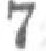7
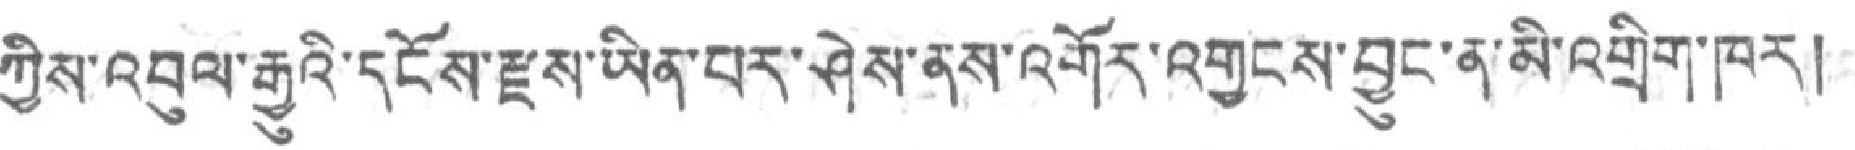ཀྱིས་འབུལ་རྒྱུའི་དངོས་རྫས་ཡིན་པར་ཤེས་ནས་འགོར་འགྱངས་བྱུང་ན་མི་འགྲིག་ཁར།
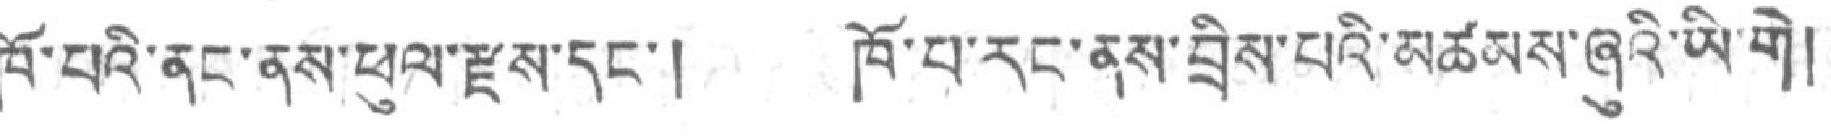ཁོ་པའི་ནང་ནས་ཕུལ་རྫས་དང་། ཁོ་པ་རང་ནས་བྲིས་པའི་མཚམས་ཞུའི་ཡི་གེ།
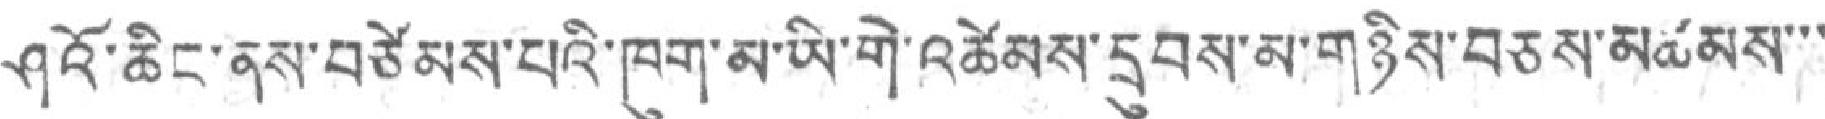ཤའོ་ཆིང་ནས་བཙེམས་པའི་ཁག་མ་ཡི་གེ་འཚེམས་དྲབས་མ་གཉིས་བཅས་མཚམས་་་
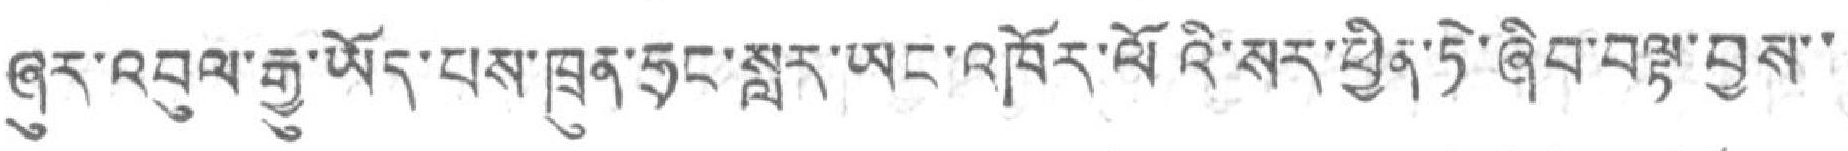ཞར་འབུལ་རྒྱུ་ཡོད་པས་ཁྲུན་ཧྲང་སླར་ཡང་འཁོར་ལོའི་སར་ཕྱིན་ཏེ་ཞིབ་བལྟ་བྱས་་
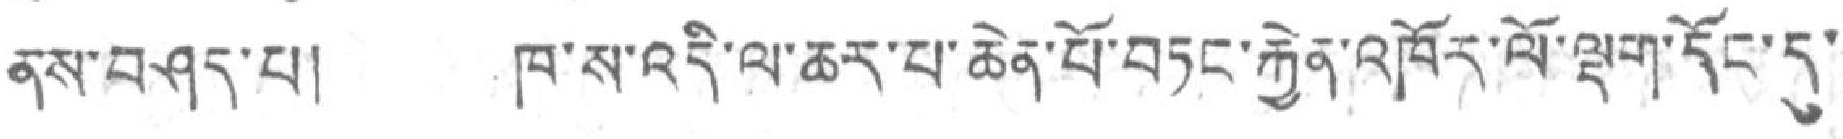ནས་བཤད་པ། ཁ་ས་འདི་ལ་ཆར་པ་ཆེན་པོ་བཏང་རྐྱེན་འཁོར་ལོ་ལྡག་དོང་དུ་
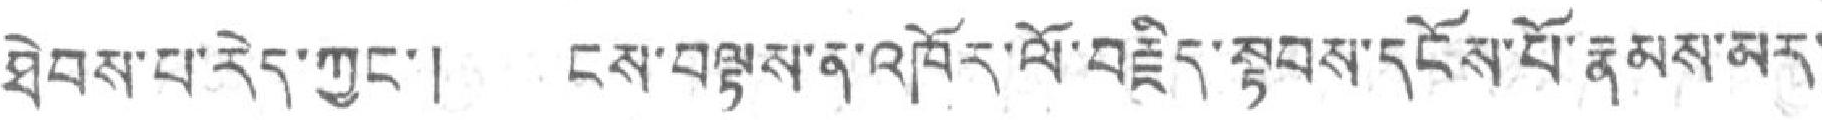ཐེབས་པ་རེད་ཀྱང་། ངས་བལྟས་ན་འཁོར་ལོ་བརྗིད་སྟབས་དངོས་པོ་རྣམས་མར་
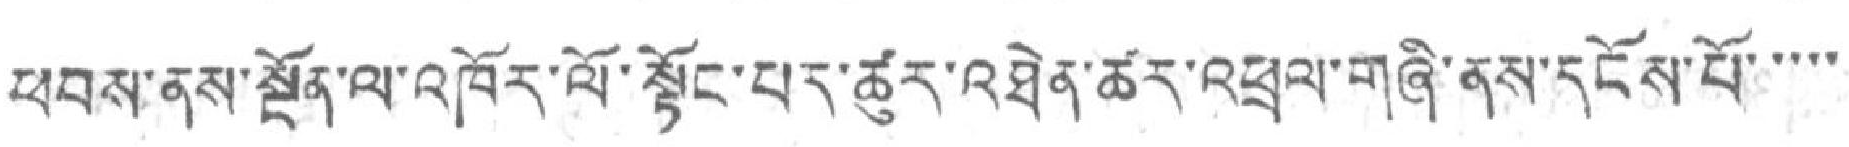ཕབས་ནས་སྔོན་ལ་འཁོར་ལོ་སྟོང་པར་ཚུར་འཐེན་ཚར་འཕྲལ་གཞི་ནས་དངོས་པོ་་་་་
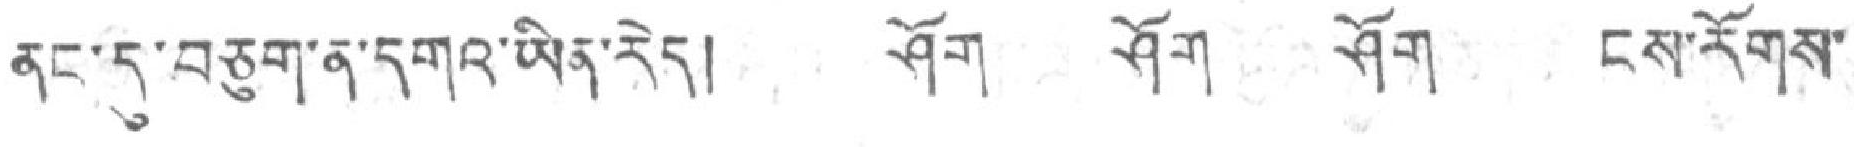ནང་དུ་བཅུག་ན་དགའ་ཡིན་རེད། ཤོག ཤོག ཤོག ངས་རོགས་
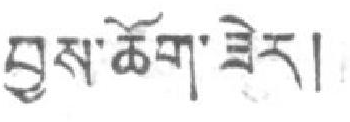བྱས་ཆོག་ཟེར།
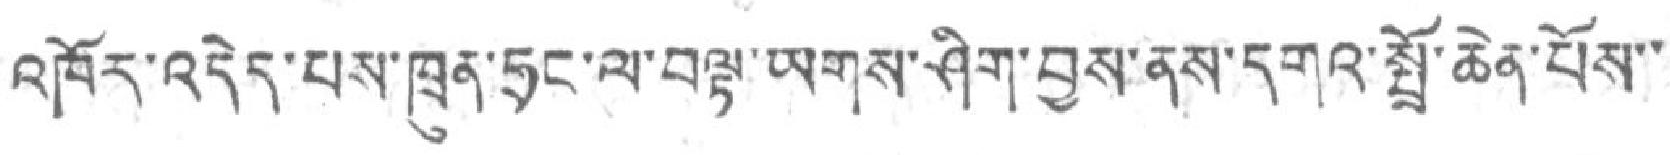འཁོར་འདེད་པས་ཁྲུན་ཧྲང་ལ་བལྟ་ཡགས་ཤིག་བྱས་ནས་དགའ་སྤྲོ་ཆེན་པོས་་
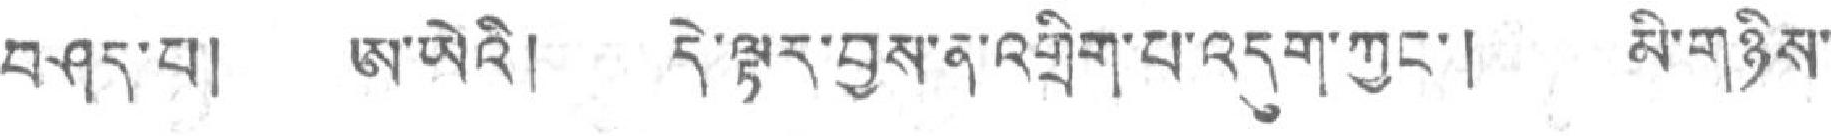བཤད་པ། ཨ་ཡེའི། དེ་ལྟར་བྱས་ན་འགྲིག་པ་འདུག་ཀྱང་། མི་གཉིས་
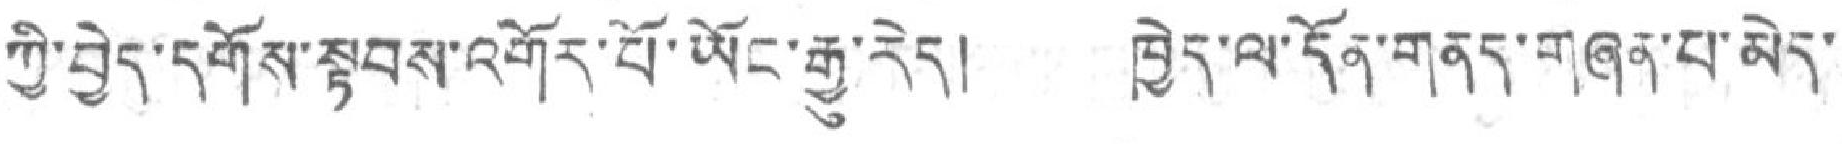ཀྱི་བྱེད་དགོས་སྟབས་འགོར་པོ་ཡོང་རྒྱ་རེད། ཁྱེད་ལ་དོན་གནད་གཞན་པ་མེད་
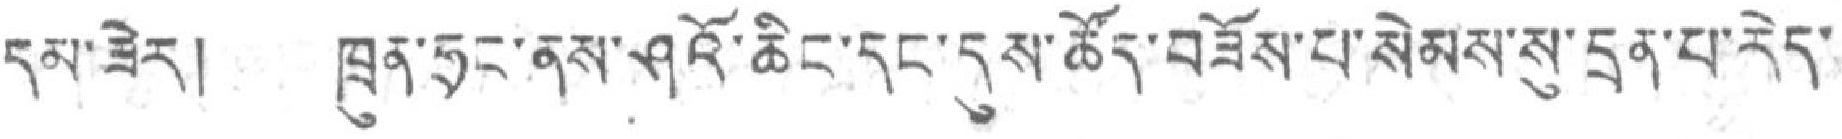དམ་ཟེར། ཁྲུན་ཧྲང་ནས་ཤའོ་ཆིང་དང་དུས་ཚོད་བཟོས་པ་སེམས་སུ་དྲན་པ་རེད་
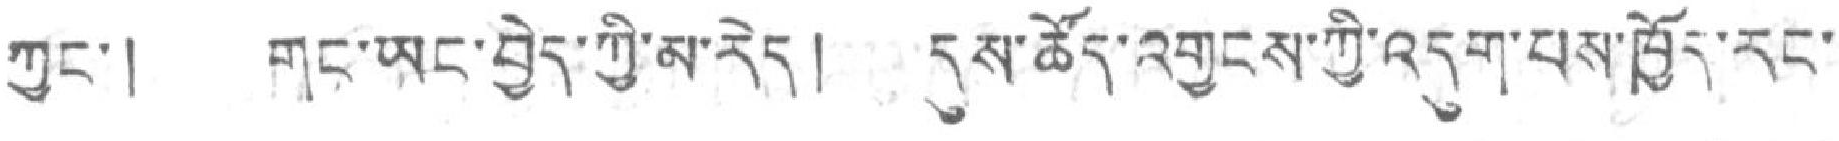ཀྱང་། གང་ཡང་བྱེད་ཀྱི་མ་རེད། དུས་ཚོད་འགྱངས་ཀྱི་འདུག་པས་ཁྱོར་རང་
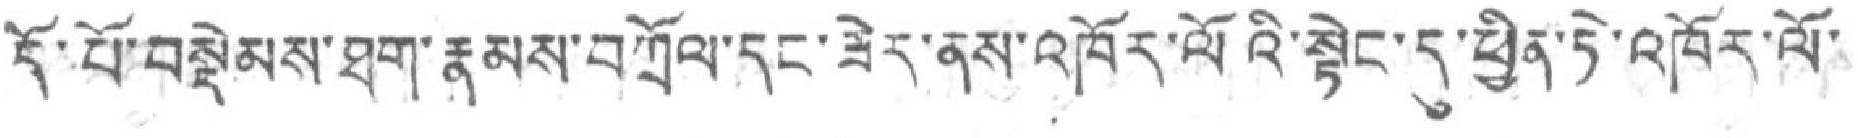དོ་པོ་བསྡེམས་ཐག་རྣམས་བཀྲོལ་དང་ཟེར་ནས་འཁོར་ལོའི་སྟེང་དུ་ཕྱིན་ཏེ་འཁོར་ལོ་
